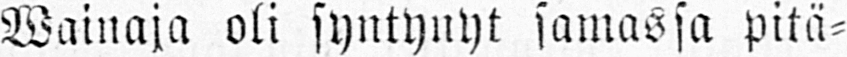Wainaja oli syntynyt samassa pitä-
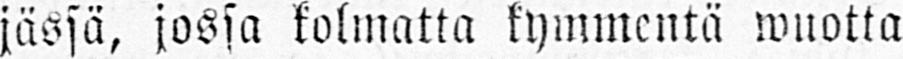jässä, jossa kolmatta kymmentä wuotta
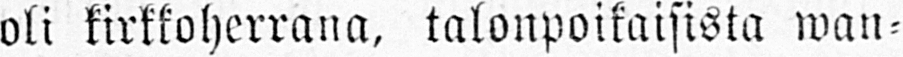oli kirkkoherrana, talonpoikaisista wan-
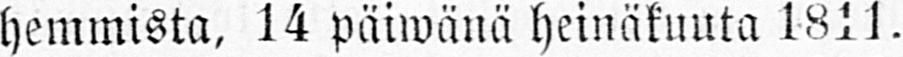hemmista, 14 päiwänä heinäkuuta 1811.
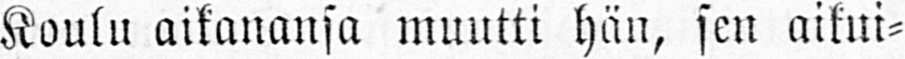Koulu aikanansa muutti hän, sen aikui-
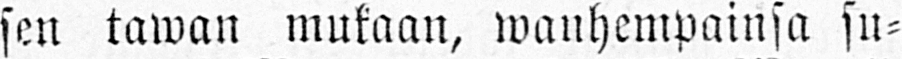sen tawan mukaan, wanhempainsa su-
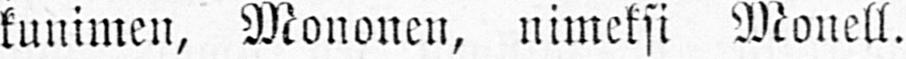kunimen, Mononen, nimeksi Monell.
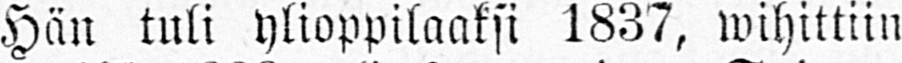Hän tuli ylioppilaaksi 1837, wihittiin
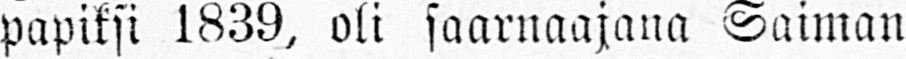papiksi 1839, oli saarnaajana Saiman
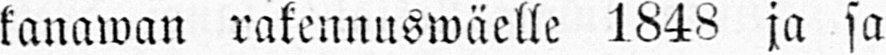kanawan rakennuswäelle 1848 ja sa-
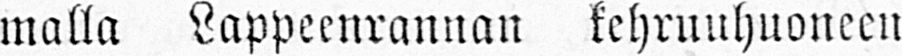malla Lappeenrannan kehruuhuoneen
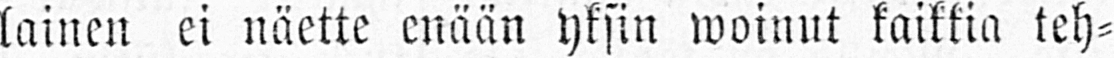lainen ei näette enään yksin woinut kaikkia teh-
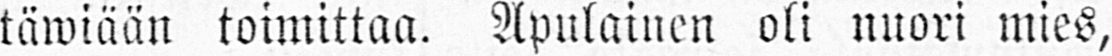täwiään toimittaa. Apulainen oli nuori mies,
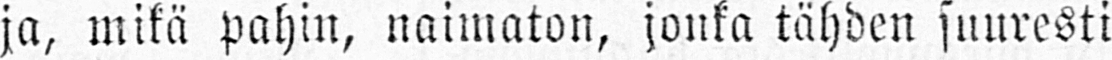ja, mikä pahin, naimaton, jonka tähden suuresti
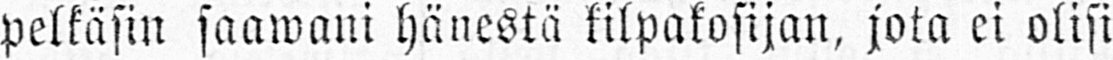pelkäsin saawani hänestä kilpakosijan, jota ei olisi
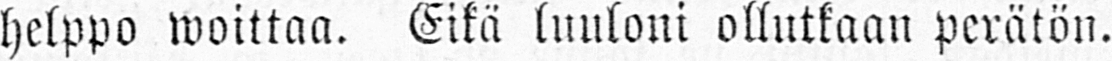helppo woittaa. Eikä luuloni ollutkaan perätön.
